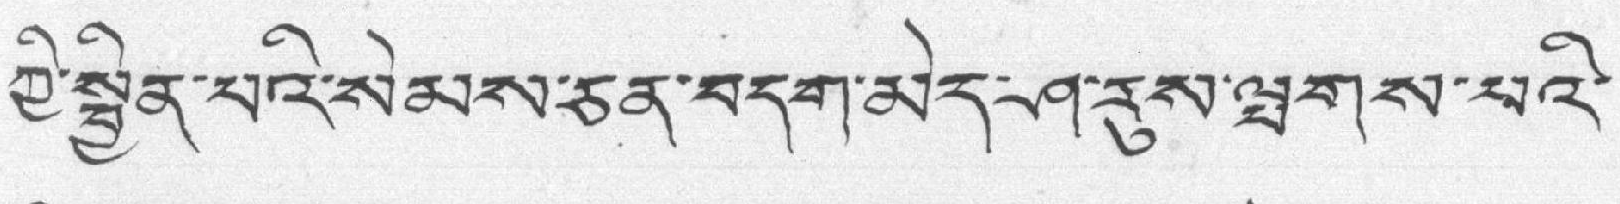ཀྱི་སྦྱིན་པའི་སེམས་ཅན་བདག་མེད་ཤ་རུས་ལྤགས་པའི་
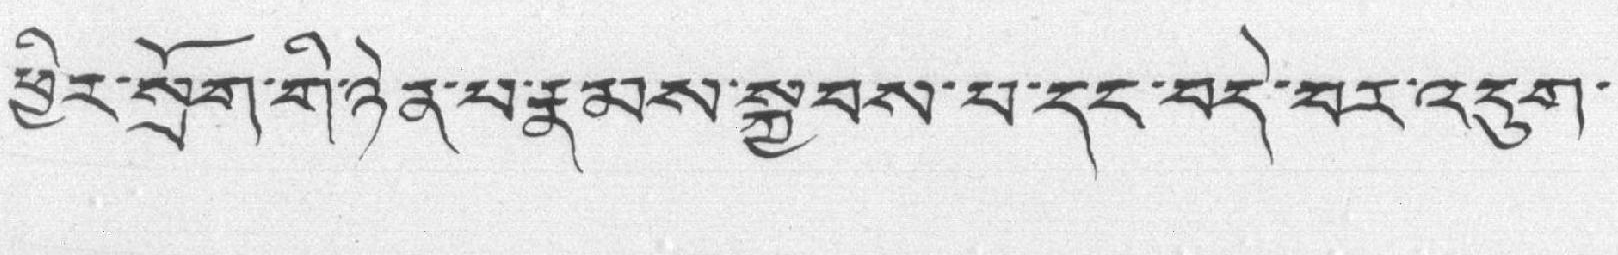ཕྱིར་སྲོག་གི་ཉེན་པ་རྣམས་སྐྱབས་པ་དང་བདེ་བར་འདུག་
